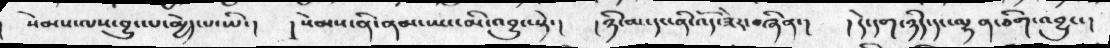སེམས་ལས་བྱུང་པ་མྱེད་པ་ཡི་།  །སེམས་ནི་ནམ་ཡང་མི་འབྱུང་སྟེ་། །ཉི་མ་དང་ནི་འོད་ཟེར་བཞིན་།  །དེ་དག་ཉིད་དང་ལྷན་ཅིག་འབྱུང་།
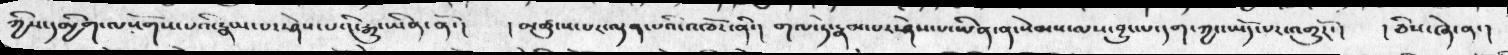ཀྱིས་དམྱིག་ལསོགས་པའི་རྣམ་པར་ཤེས་པའི་རྒྱུ་ཡིན་ནོ་།  །མཚུངས་པར་ལྡན་པའི་འཁོར་ནི་།  གལ་ཏེ་རྣམ་པར་ཤེས་པ་ཡིན་ན་སེམས་ལས་བྱུང་པ་དག་ཀྱང་ཡོད་པར་འགྱུརོ་།  །ཅིས་ཞེ་ན་།
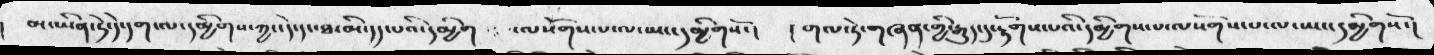མ་ཡིན་ཏེ་དེ་དག་ལ་དམྱིགས་ཀྱང་དེ་དང་ཐ་མི་དད་པའི་དམྱིག  ་ལསོགས་པ་ལ་ཡང་དམྱིགསོ་།  །གལ་ཏེ་གཞན་གྱི་རྒུད་དུ་རྟོགས་པའི་དམྱིགས་པ་ལསོགས་པ་ལ་ཡང་དམྱིགསོ་།
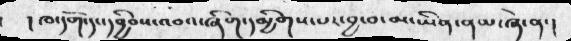།ཁ་དོག་དང་དབྱིབས་འབའ་ཞིག་དམྱིགས་པར་བྱ་བ་མ་ཡིན་ནམ་ཞེ་ན་།
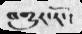འགྱུར་རོ་།
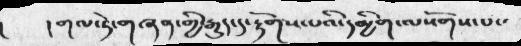།  །གལ་ཏེ་གཞན་གྱུ་རྒུད་དུ་རྟོགས་པའི་དམྱིག་ལསོགས་པ་
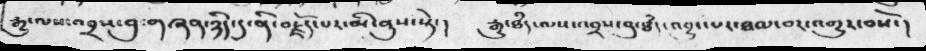རྒྱུ་ལས་འབྲས་བུ་གཞན་ཉིད་དུ་ནི་བརྗོད་པར་མི་ནུས་སྟེ་། རྒྱུ་ཐཾད་ལས་འབྲས་བུ་ཐཾད་འབྱུང་པར་ཐམ་བར་འགྱུར་བསོ་།
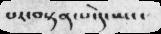པར་བསྟན་པ་དེ་ཡང་
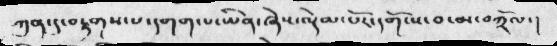ཀུན་དུ་བརྟགས་པ་དགག་པ་ཡིན་ཞེས་ལྡེམ་པོར་དགོངས་བ་མ་བཀྲོལ་།
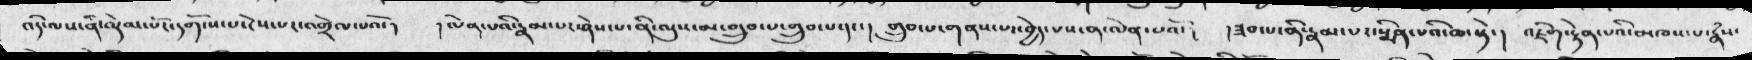འདི་ལས་ནི་ལྡེམ་པོར་དགོངས་པ་ངེས་པར་འགྲེལ་པའོ་།  །ལེན་པའི་རྣམ་པར་ཤེས་པ་ནི་ལུས་མ་གྲུབ་པ་གྲུབ་པ་དང་། གྲུབ་པ་གནས་པར་བྱེད་པས་ན་ལེན་པའོ་།  །ཟབ་པ་ནི་རྣམ་པར་སྨིན་པའི་ཆ་སྟེ་། འཇིག་རྟེན་པའི་མཁས་པ་རྣཾས་
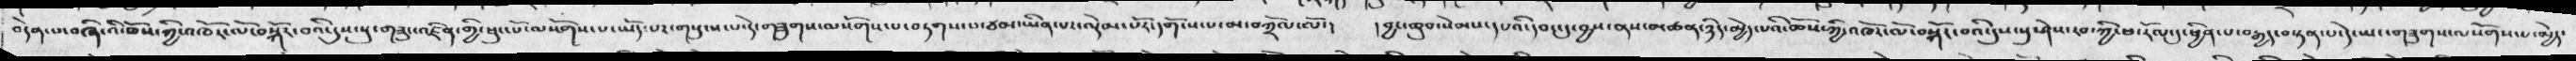བདེན་པ་བཞི་འི་ཆོས་ཀྱི་འཁོར་ལོ་བསྐོར་བའི་དུས་སུ་གཟུང་འཛིན་གྱི་ཕུང་པོ་ལསོགས་པ་ཡོད་པར་གསུངས་པ་དེ་གཟུགས་ལསོགས་པ་བཏགས་པ་ཙམ་ཡིན་པར་འདེམ་པོར་དགོངས་པ་མ་བཀྲོལ་ལོ་། །བྱང་ཆུབ་སེམས་དཔའི་དབང་དུ་བྱས་ནས་མཚན་ཉིད་མྱེད་པའི་ཆོས་ཀྱི་འཁོར་ལོ་བསྐོར་བའི་དུས་སུ་ཤེས་རབ་ཀྱི་ཕ་རོལ་དུ་ཕྱིན་པ་བརྒྱད་བསྟན་པ་དེ་ཡང་གཟུགས་ལསོགས་པ་མྱེད་
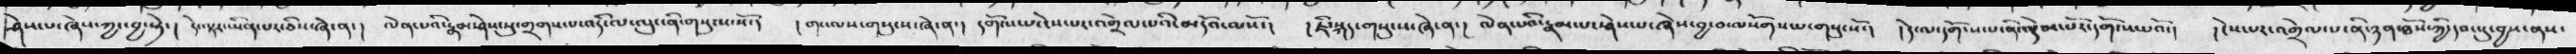ཤེས་པ་ཞེས་ཀྱང་བྱ་སྟེ་།  དེ་ལྟར་ཡིན་པར་ཅིས་ཞེ་ན་། ལེན་པའི་རྣམ་ཤེས་སུ་གྲགས་པ་འདི་ལ་ལུང་ནི་གསུངས་སོ་། །གང་ལས་གསུངས་ཞེ་ན་། དགོངས་པ་ངེས་པར་འགྲེལ་པའི་མདོའ་ལསོ་། །ཇི་སྐད་གསུངས་ཞེ་ན་། ལེན་པའི་རྣམ་པར་ཤེས་པ་ཞེས་བྱ་བ་ལསོགས་པ་གསུངསོ་། །དེ་ལ་དགོངས་པ་ནི་ལྡེམ་པོར་དགོངས་པའོ་།  །ངེས་པར་འགྲེལ་པ་ནི་ཉན་ཐོས་ཀྱི་དབང་དུ་བྱས་ནས་
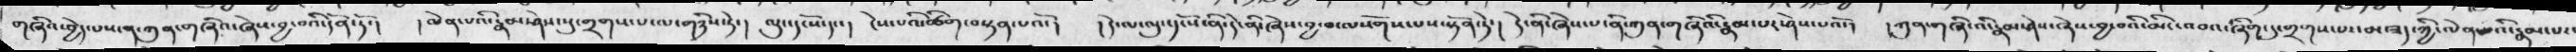གཞིའ་བྱེད་པས་ན་ཀུན་གཞིའ་ཞེས་བྱ་བའི་དོན་ཏོ་། །ལེན་པའི་རྣམ་ཤེས་སུ་གྲགས་པ་ལ་གཉིས་ཏེ་། ལུང་དང་སོ་དང་། །དེ་ལ་ལུང་དངོས་ནི་དེ་ནི་ཞེས་བྱ་བ་ལསོགས་པས་སྟོན་ཏེ་། དེ་ནི་ཞེས་པ་ནི་ཀུན་གཞིའི་རྣམ་པར་ཤེས་པའོ་།  །ཀུན་གཞི་འི་རྣམ་ཤེས་ཞེས་བྱ་བའི་མིང་འབའ་ཞིག་དུ་གྲགས་པ་མ་ཟད་ཀྱི་ལེན་པའི་རྣམ་པར་
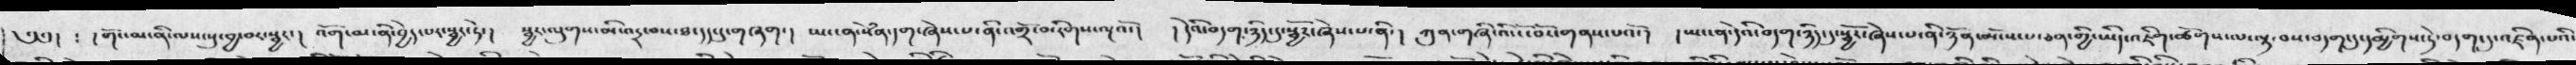༄༅། ༴ །གོང་མ་ནི་ལས་སུ་བྱ་བར་སྦྱར་།  འོག་མ་ནི་བྱེད་པར་སྦྱར་ཏེ་། སྦྱང་ལུགས་མི་འདྲ་བས་ཐ་དད་དུ་གཞག་། ཡང་ན་སེཾན་དག་ཞེས་པ་ནི་འགྲོ་བ་རིགས་ལྔའོ་།  དེའི་བདག་ཉིད་དུ་སྦྱོར་ཞེས་པ་ནི་། ཀུན་གཞི་འི་ངོ་བོར་གནས་པའོ་།  །ཡང་ན་དེའི་བདག་ཉིད་དུ་སྦྱོར་ཞེས་པ་ནི་ཉོན་མོངས་པ་ཅན་གྱི་ཡིད་འཇིག་ཚོགས་ལ་ལྟ་བས་བདག་དུ་དམྱིགས་ཏེ་བདག་དུ་འཛིན་པའི་
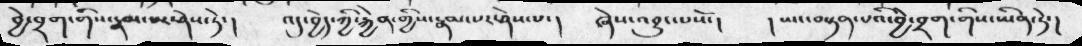བྱེ་བྲག་གིས་རྣམ་པར་ཤེས་ཏེ་།  འདུ་བྱེད་ཀྱི་རྐྱེན་གྱིས་རྣམ་པར་ཤེས་པ་།  ཞེས་འབྱུང་པོས་།  །ཡང་བསྟན་པའི་བྱེ་བྲག་གིས་ཡིན་ཏེ་།
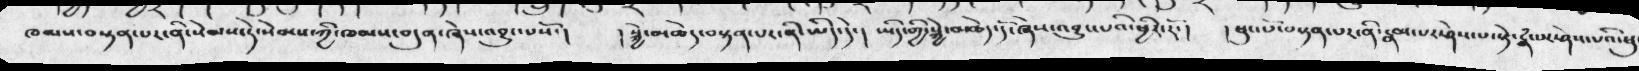ཁམས་བསྟན་པར་ནི་སེམས་དེ་སེམས་ཀྱི་ཁམས་བདུན་ཞེས་འབྱུང་པསོ་། །སྐྱེ་མཆེད་བསྟན་པར་ནི་ཡིད་དེ་།  ཡིད་གྱི་སྐྱེ་མཆེད་དོ་ཞེས་འབྱུང་པའི་ཕྱིར་རོ་།  །ཕུང་པོ་བསྟན་པར་ནི་རྣམ་པར་ཤེས་པ་སྟེ་རྣཾ་པར་ཤེས་པའི་ཕུ
